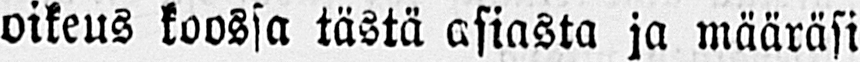oikeus koossa tästä asiasta ja määräsi
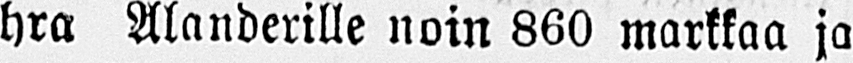hra Alanderille noin 860 markkaa ja
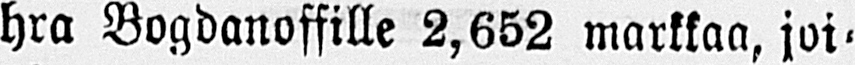hra Bogdanoffille 2,652 markkaa, joi-
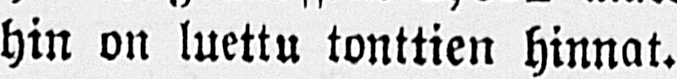hin on luettu tonttien hinnat.
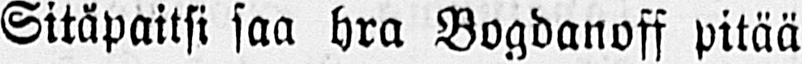Sitäpaitsi saa hra Bogdanoff pitää
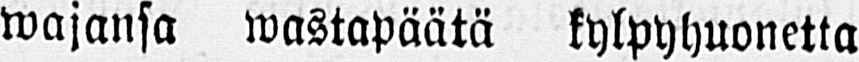wajansa kylpyhuonetta
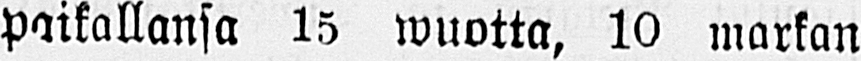paikallansa 15 wuotta, 10 markan
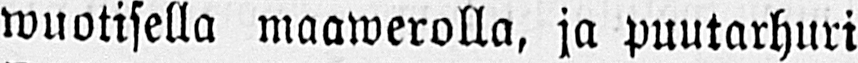wuotisella maawerolla, ja puutarhuri
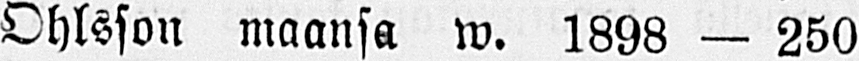Ohlsson maansa w. 1898 — 250
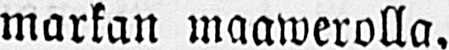markan maawerolla.
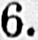6.
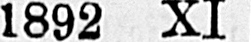Kuu.
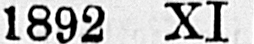1892 XI
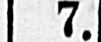7.
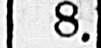8.
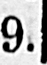9.
